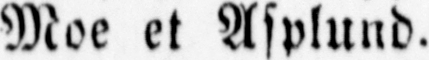Moe et Asplund.
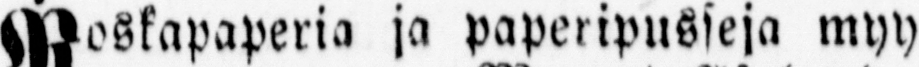Roskapaperia ja paperipusseja myy
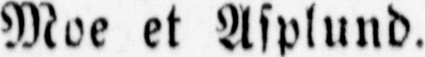Moe et Asplund.
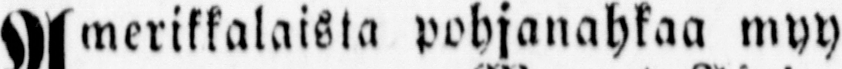Amerikkalaista pohjanahkaa myy
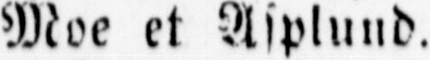Moe et Asplund.
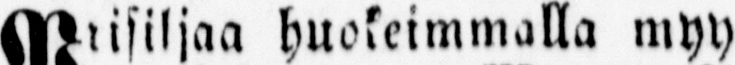Prisiljaa huokeimmalla myy
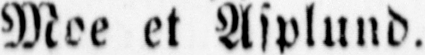Moe et Asplund.
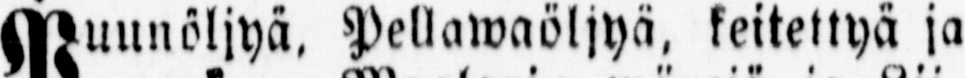Puunöljyä. Pellawaöljyä, keitettyä ja
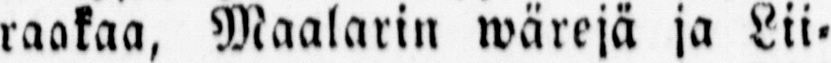raakaa, Maalarin wärejä ja Lii-
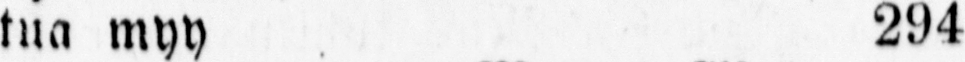tua myy 294
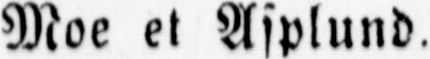Moe et Asplund.
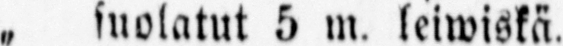„ suolatut 5 m. leiwiskä.
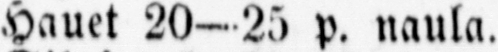Hauet 20—25 p. naula.
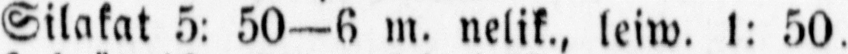Silakat 5: 50—6 m. nelik., leiw. 1: 50.
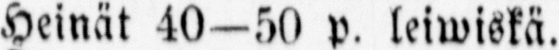Heinät 40—50 p. leiwiskä.
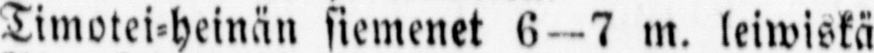Timotei-heinän siemenet 6 -7 m. leiwiskä.
